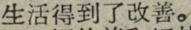生活得到了改善。
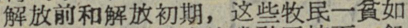解放前和解放初期，这些牧民一貧如
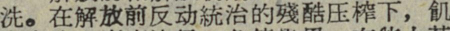洗。在解放前反动統治的殘酷压榨下，飢
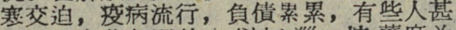寒交迫，疫病流行，負債累累，有些人甚
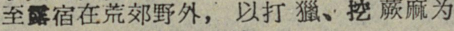至露宿在荒郊野外，以打獵、挖蕨麻为
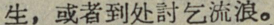生，或者到处討乞流浪。
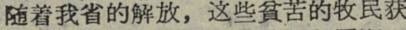隨着我省的解放，这些貧苦的牧民获
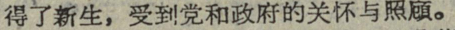得了新生，受到党和政府的关怀与照顧。
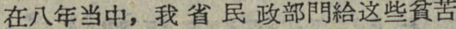在八年当中，我省民政部門給这些貧苦
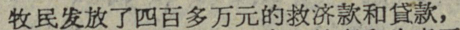牧民发放了四百多万元的教济款和貸款，
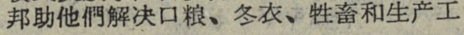邦助他們解决口粮、冬衣、牲畜和生产工
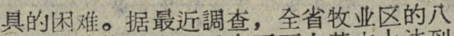具的困难。据最近調查，全省牧业区的八
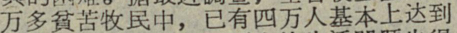万多貧苦牧民中，已有四万人基本上达到
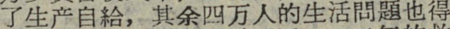了生产自給，其余四万人的生活問題也得
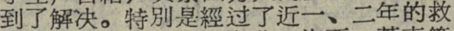到了解决。特別是經过了近一、二年的救
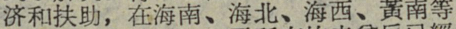济和扶助，在海南、海北、海西、黃南等
